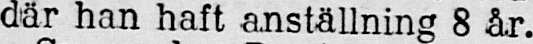där han haft anställning 8 år.
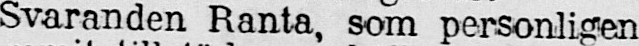Svaranden Ranta, som personligen
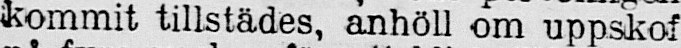kommit tillstädes, anhöll om uppskof
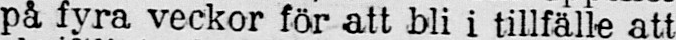på fyra veckor för att bli i tillfälle att
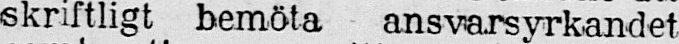skriftligt bemöta ansvarsyrkandet
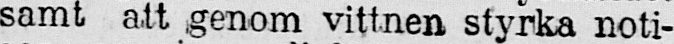samt att genom vittnen styrka noti-
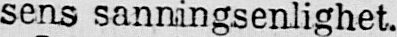sens sanningsenlighet.
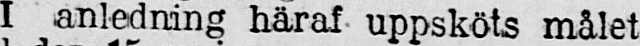I anledning häraf uppsköts målet
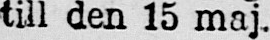till den 15 maj.
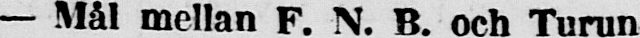— Mål mellan F. N. B. och Turun
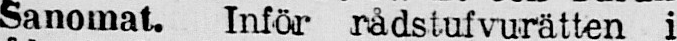Sanomat. Inför rådstufvurätten i
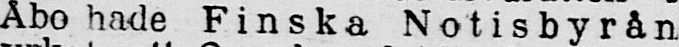Åbo hade Finska Notisbyrån
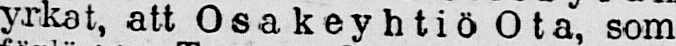yrkat, att Osakeyhtiö Ota, som
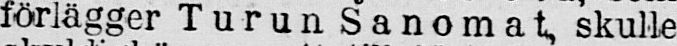förlägger Turun Sanomat, skulle
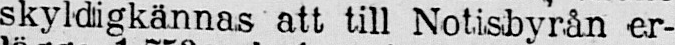skyldigkännas att till Notisbyrån er-
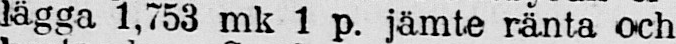lägga 1,753 mk 1 p. jämte ränta och
